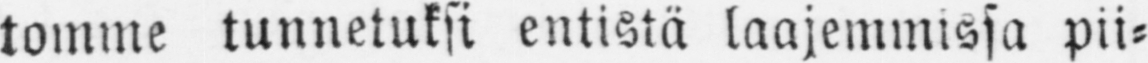tomme tunnetuksi entistä laajemmissa pii-
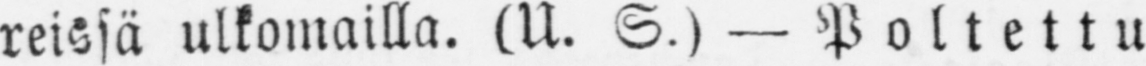reissä ulkomailla. (U. S.) — Poltettu
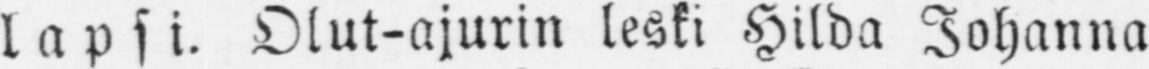lapsi. Olut-ajurin leski Hilda Johanna
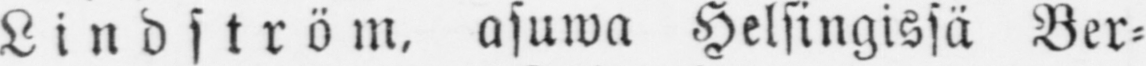Lindström, asuwa Helsingissä Ber-
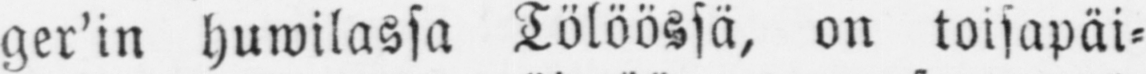gen'in huwilassa Tölöössä, on toisapäi-
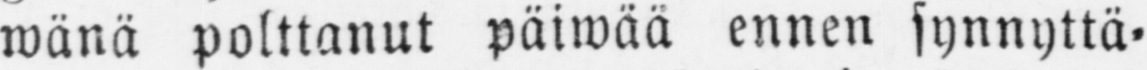wänä polttanut päiwää ennen synnyttä-
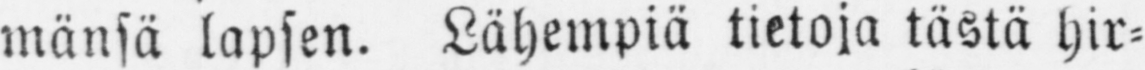mänsä lapsen. Lähempiä tietoja tästä hir-
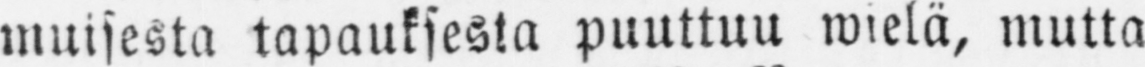muisesta tapauksesta puuttuu wielä, mutta
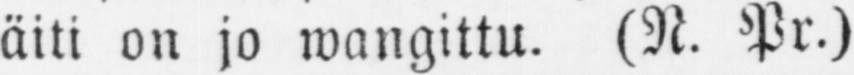äiti on jo wangittu. (N. Pr.)
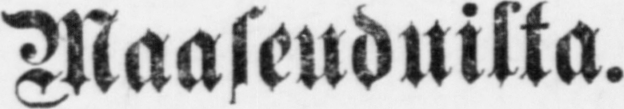Maaseuduilta.
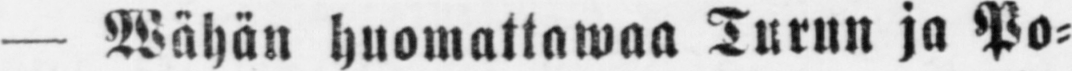— Wähän huomattawaa Turun ja Po-
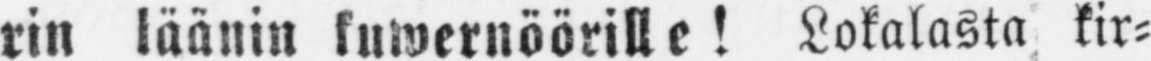rin läänin kuwernöörille! Lokalasta kir-
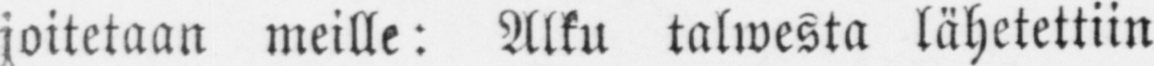joitetaan meille: Alku talwesta lähetettiin
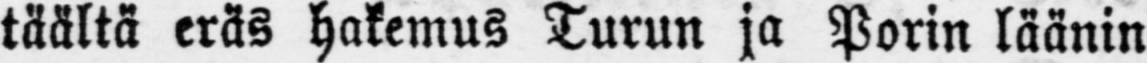täältä eräs hakemus Turun ja Porin läänin
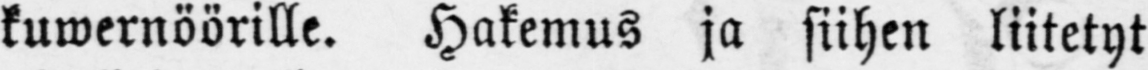kuwernöörille. Hakemus ja siihen liitetyt
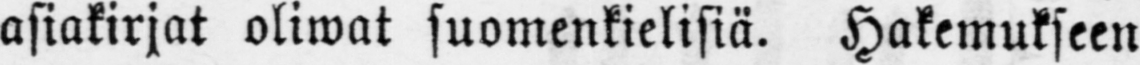asiakirjat oliwat suomenkielisiä. Hakemukseen
